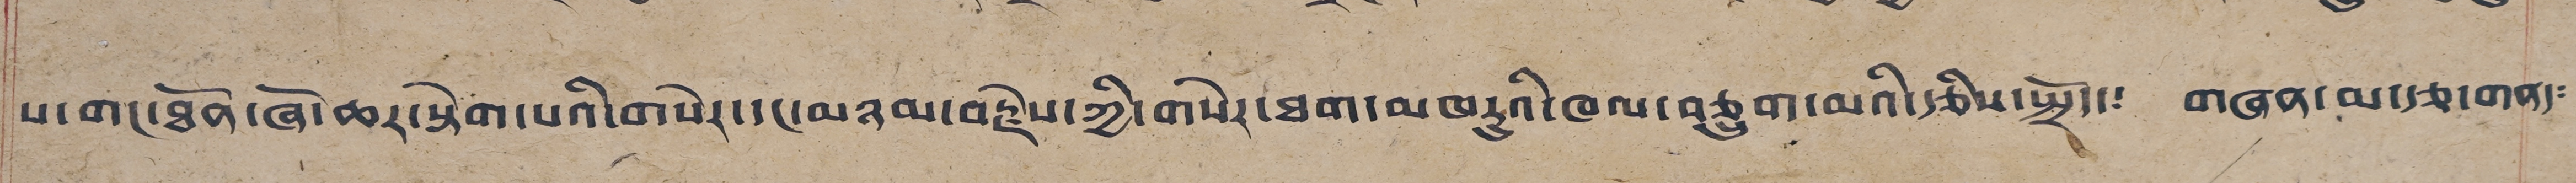པ་གང་ཐོན་ཁོ་ཆར་སྟེག་པའི་གསེར་དང་མཉམ་བརྗེས་ཀྱི་གསེར་ཐག་མཁརུའི་ཁལ་བཅུ་དྲུག་མའི་རྩིས་སྤྲོད་༴ གཞན་མ་རྩ་གནད༴
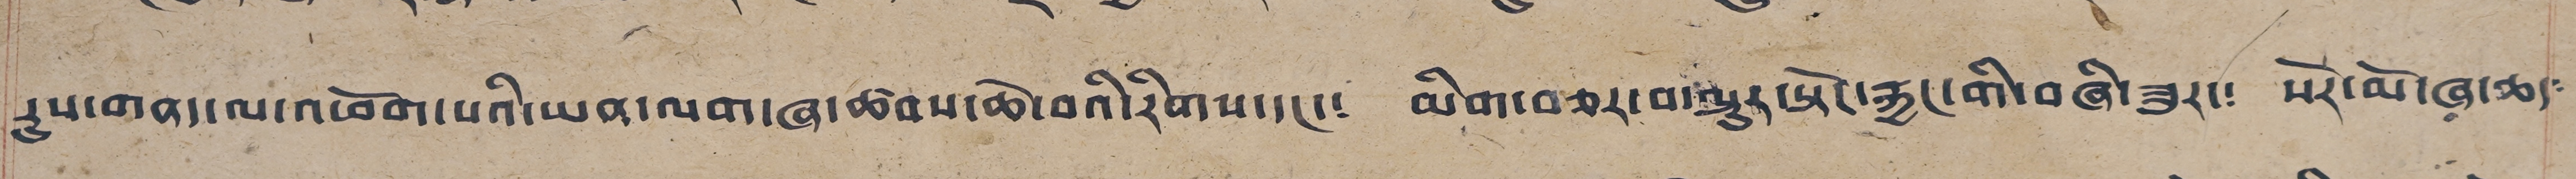རུས་གནད་ལ་འཕོག་པའི་ཡན་ལག་ཞ་ཚབས་ཆེ་བའི་རིགས་དང་༴ མིག་བཅར་བ་ལྷུར་སྟོང་རྐྱང་གི་བཞི་ཟུར་༴ སོར་མོ་ཞ་ཆད༴
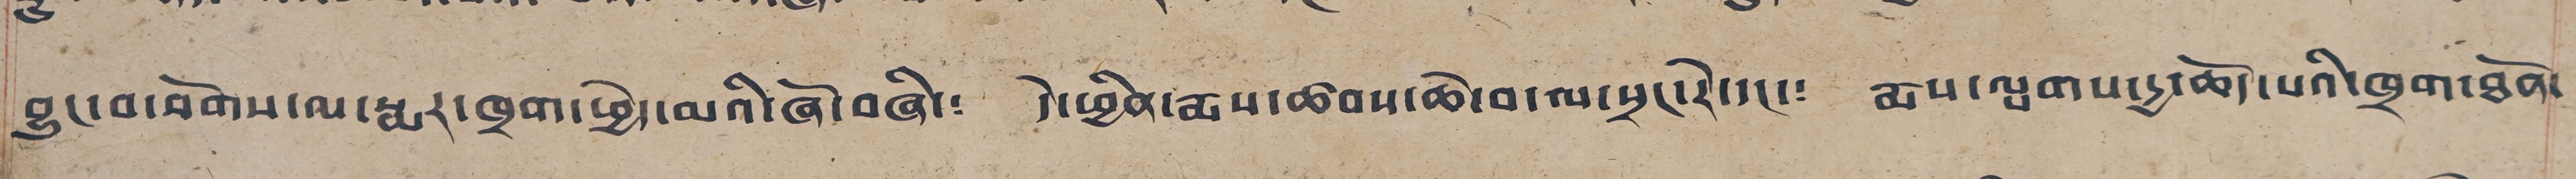བྱུང་བ་བོགས་ལ་སྨར་ཁྲག་ཕྱེད་མའི་ཞོ་བཞི་༴ དེ་ཕྱིན་རྨས་ཚབས་ཆེ་བ་ལ་སྲང་རེ་དང་༴ རྨས་ལྤགས་དྱ་ཆོད་པའི་ཁྲག་ཐོན་
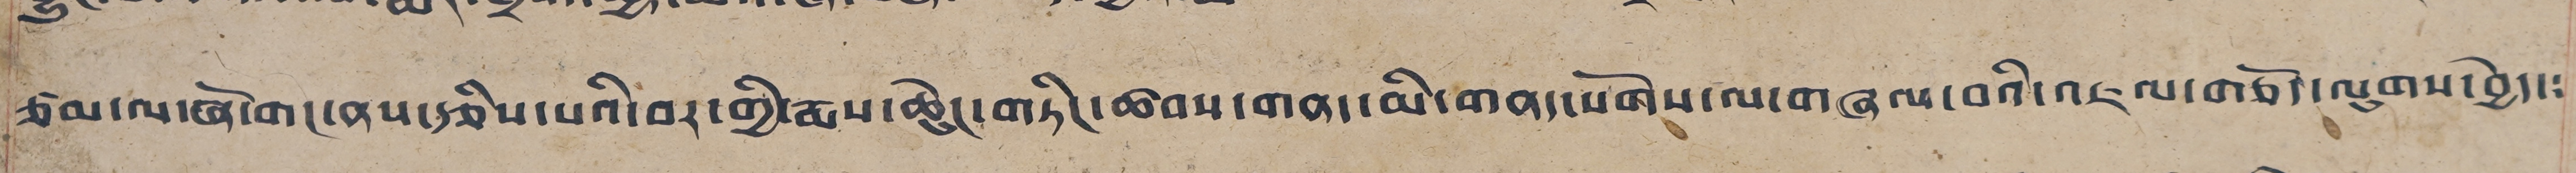ཙམ་ལ་ཞོ་གང་ནས་རྩིས་པའི་བར་གྱི་རྨས་ཆེུང་གཏིང་ཚབས་གནད་མི་གནད་སོགས་ལ་གཞལ་བའི་འཇལ་གཅོད་ལུགས་བྱེད་༴
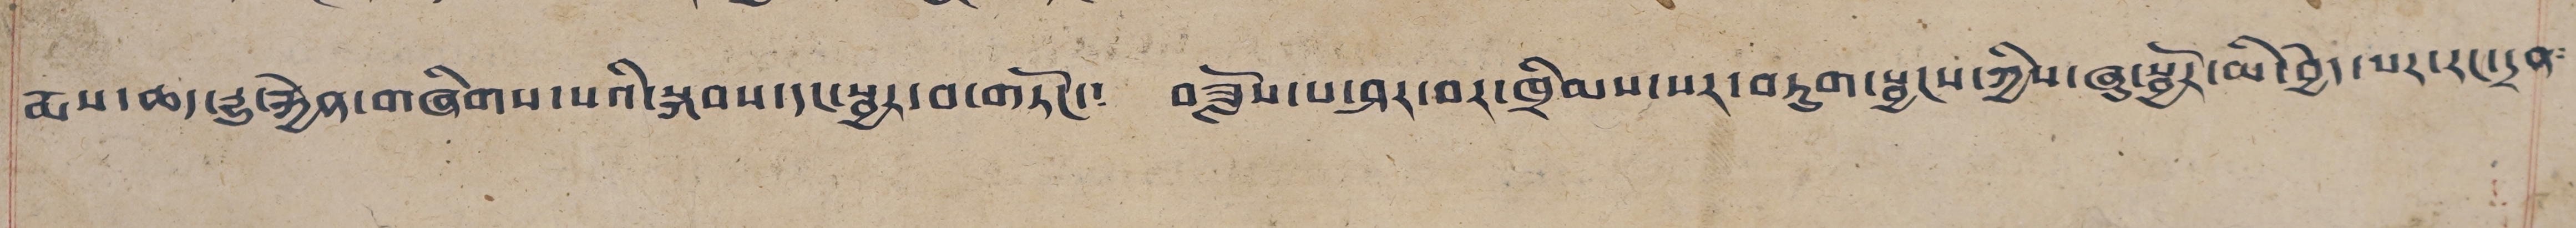རྨས་ཆད་རྒྱུ་རྐྱེན་གཞིགས་པའི་སྐབས་དང་སྦྱར་བ་གཏོང་༴ བཟློས་པ་ཤར་བར་ཁྲིམས་སར་བཏུག་སྦྱངས་ཀྱིས་ཞུ་སྦྱོར་མི་བྱེད་པར་རང་དྲན༴
